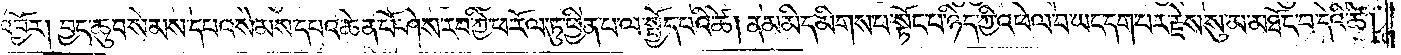འབྱོར། བྱང་ཆུབ་སེམས་དཔའ་སེམས་དཔའ་ཆེན་པོ་ཤེས་རབ་ཀྱི་ཕ་རོལ་ཏུ་ཕྱིན་པ་ལ་སྤྱོད་པའི་ཚེ། ནམ་མི་དམིགས་པ་སྟོང་པ་ཉིད་ཀྱི་འཕེལ་བ་ཡང་དག་པར་རྗེས་སུ་མ་མཐོང་བ་དེའི་ཚེ།
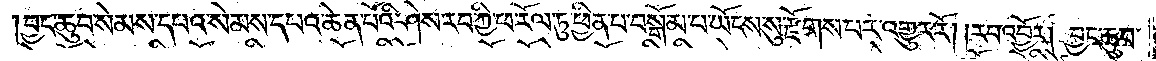བྱང་ཆུབ་སེམས་དཔའ་སེམས་དཔའ་ཆེན་པོའི་ཤེས་རབ་ཀྱི་ཕ་རོལ་ཏུ་ཕྱིན་པ་བསྒོམ་པ་ཡོངས་སུ་རྫོགས་པར་འགྱུར་རོ། །རབ་འབྱོར། བྱང་ཆུབ་
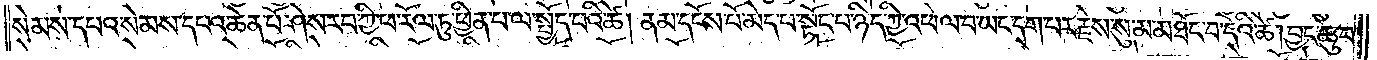སེམས་དཔའ་སེམས་དཔའ་ཆེན་པོ་ཤེས་རབ་ཀྱི་ཕ་རོལ་ཏུ་ཕྱིན་པ་ལ་སྤྱོད་པའི་ཚེ། ནམ་དངོས་པོ་མེད་པ་སྟོང་པ་ཉིད་ཀྱི་འཕེལ་བ་ཡང་དག་པར་རྗེས་སུ་མ་མཐོང་བ་དེའི་ཚེ། བྱང་ཆུབ་
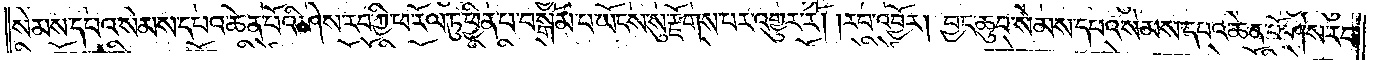སེམས་དཔའ་སེམས་དཔའ་ཆེན་པོའི་ཤེས་རབ་ཀྱི་ཕ་རོལ་ཏུ་ཕྱིན་པ་བསྒོམ་པ་ཡོངས་སུ་རྫོགས་པར་འགྱུར་རོ། །རབ་འབྱོར། བྱང་ཆུབ་སེམས་དཔའ་སེམས་དཔའ་ཆེན་པོ་ཤེས་རབ་
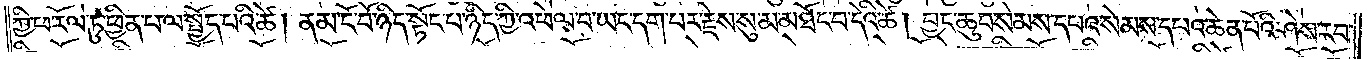ཀྱི་ཕ་རོལ་ཏུ་ཕྱིན་པ་ལ་སྤྱོད་པའི་ཚེ། ནམ་ངོ་བོ་ཉིད་སྟོང་པ་ཉིད་ཀྱི་འཕེལ་བ་ཡང་དག་པར་རྗེས་སུ་མ་མཐོང་བ་དེའི་ཚེ། བྱང་ཆུབ་སེམས་དཔའ་སེམས་དཔའ་ཆེན་པོའི་ཤེས་རབ་
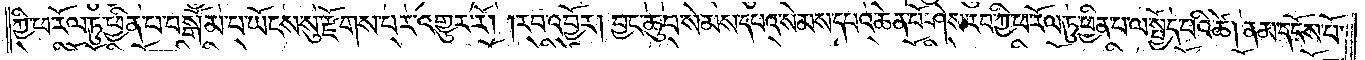ཀྱི་ཕ་རོལ་ཏུ་ཕྱིན་པ་བསྒོམ་པ་ཡོངས་སུ་རྫོགས་པར་འགྱུར་རོ། །རབ་འབྱོར། བྱང་ཆུབ་སེམས་དཔའ་སེམས་དཔའ་ཆེན་པོ་ཤེས་རབ་ཀྱི་ཕ་རོལ་ཏུ་ཕྱིན་པ་ལ་སྤྱོད་པའི་ཚེ། ནམ་དངོས་པོ་
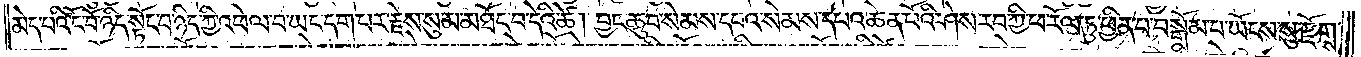མེད་པའི་ངོ་བོ་ཉིད་སྟོང་པ་ཉིད་ཀྱི་འཕེལ་བ་ཡང་དག་པར་རྗེས་སུ་མ་མཐོང་བ་དེའི་ཚེ། བྱང་ཆུབ་སེམས་དཔའ་སེམས་དཔའ་ཆེན་པོའི་ཤེས་རབ་ཀྱི་ཕ་རོལ་ཏུ་ཕྱིན་པ་བསྒོམ་པ་ཡོངས་སུ་རྫོགས་
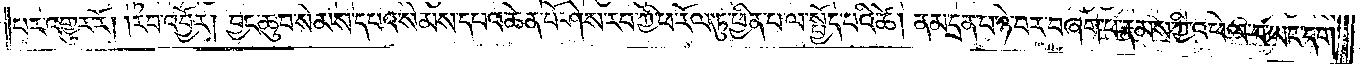པར་འགྱུར་རོ། །རབ་འབྱོར། བྱང་ཆུབ་སེམས་དཔའ་སེམས་དཔའ་ཆེན་པོ་ཤེས་རབ་ཀྱི་ཕ་རོལ་ཏུ་ཕྱིན་པ་ལ་སྤྱོད་པའི་ཚེ། ནམ་དྲན་པ་ཉེ་བར་བཞག་པ་རྣམས་ཀྱི་འཕེལ་བ་ཡང་དག་
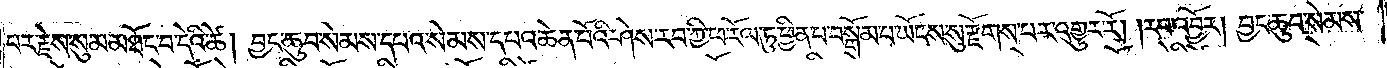པར་རྗེས་སུ་མ་མཐོང་བ་དེའི་ཚེ། བྱང་ཆུབ་སེམས་དཔའ་སེམས་དཔའ་ཆེན་པོའི་ཤེས་རབ་ཀྱི་ཕ་རོལ་ཏུ་ཕྱིན་པ་བསྒོམ་པ་ཡོངས་སུ་རྫོགས་པར་འགྱུར་རོ། །རབ་འབྱོར། བྱང་ཆུབ་སེམས་
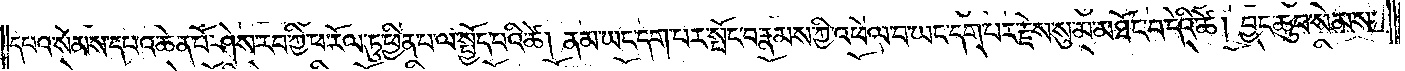དཔའ་སེམས་དཔའ་ཆེན་པོ་ཤེས་རབ་ཀྱི་ཕ་རོལ་ཏུ་ཕྱིན་པ་ལ་སྤྱོད་པའི་ཚེ། ནམ་ཡང་དག་པར་སྤོང་བ་རྣམས་ཀྱི་འཕེལ་བ་ཡང་དག་པར་རྗེས་སུ་མ་མཐོང་བ་དེའི་ཚེ། བྱང་ཆུབ་སེམས་
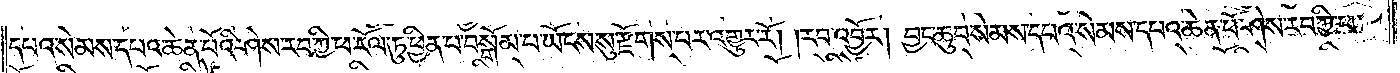དཔའ་སེམས་དཔའ་ཆེན་པོའི་ཤེས་རབ་ཀྱི་ཕ་རོལ་ཏུ་ཕྱིན་པ་བསྒོམ་པ་ཡོངས་སུ་རྫོགས་པར་འགྱུར་རོ། །རབ་འབྱོར། བྱང་ཆུབ་སེམས་དཔའ་སེམས་དཔའ་ཆེན་པོ་ཤེས་རབ་ཀྱི་ཕ་
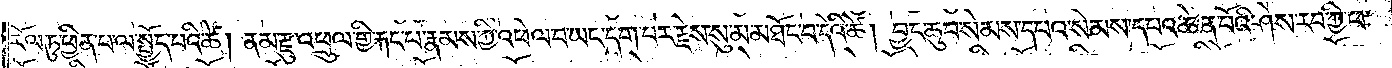རོལ་ཏུ་ཕྱིན་པ་ལ་སྤྱོད་པའི་ཚེ། ནམ་རྫུ་འཕྲུལ་གྱི་རྐང་པ་རྣམས་ཀྱི་འཕེལ་བ་ཡང་དག་པར་རྗེས་སུ་མ་མཐོང་བ་དེའི་ཚེ། བྱང་ཆུབ་སེམས་དཔའ་སེམས་དཔའ་ཆེན་པོའི་ཤེས་རབ་ཀྱི་ཕ་
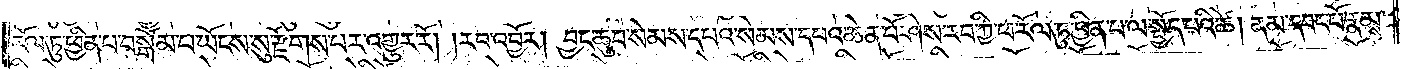རོལ་ཏུ་ཕྱིན་པ་བསྒོམ་པ་ཡོངས་སུ་རྫོགས་པར་འགྱུར་རོ། །རབ་འབྱོར། བྱང་ཆུབ་སེམས་དཔའ་སེམས་དཔའ་ཆེན་པོ་ཤེས་རབ་ཀྱི་ཕ་རོལ་ཏུ་ཕྱིན་པ་ལ་སྤྱོད་པའི་ཚེ། ནམ་དབང་པོ་རྣམས་
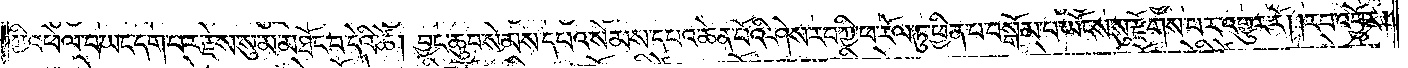ཀྱི་འཕེལ་བ་ཡང་དག་པར་རྗེས་སུ་མ་མཐོང་བ་དེའི་ཚེ། བྱང་ཆུབ་སེམས་དཔའ་སེམས་དཔའ་ཆེན་པོའི་ཤེས་རབ་ཀྱི་ཕ་རོལ་ཏུ་ཕྱིན་པ་བསྒོམ་པ་ཡོངས་སུ་རྫོགས་པར་འགྱུར་རོ། །རབ་འབྱོར།
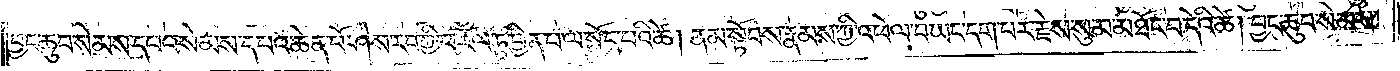བྱང་ཆུབ་སེམས་དཔའ་སེམས་དཔའ་ཆེན་པོ་ཤེས་རབ་ཀྱི་ཕ་རོལ་ཏུ་ཕྱིན་པ་ལ་སྤྱོད་པའི་ཚེ། ནམ་སྟོབས་རྣམས་ཀྱི་འཕེལ་བ་ཡང་དག་པར་རྗེས་སུ་མ་མཐོང་བ་དེའི་ཚེ། བྱང་ཆུབ་སེམས་
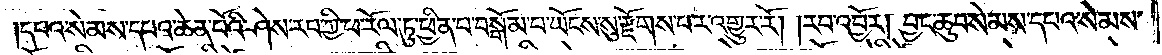དཔའ་སེམས་དཔའ་ཆེན་པོའི་ཤེས་རབ་ཀྱི་ཕ་རོལ་ཏུ་ཕྱིན་པ་བསྒོམ་པ་ཡོངས་སུ་རྫོགས་པར་འགྱུར་རོ། །རབ་འབྱོར། བྱང་ཆུབ་སེམས་དཔའ་སེམས་
